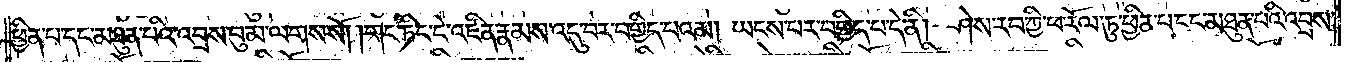ཕྱིན་པ་དང་མཐུན་པའི་འབྲས་བུ་མ་ལགས་སོ། །གང་ཏིང་ངེ་འཛིན་རྣམས་འདུ་བར་བགྱིད་པའམ། ཡངས་པར་བགྱིད་པ་དེ་ནི། ཤེས་རབ་ཀྱི་ཕ་རོལ་ཏུ་ཕྱིན་པ་དང་མཐུན་པའི་འབྲས་
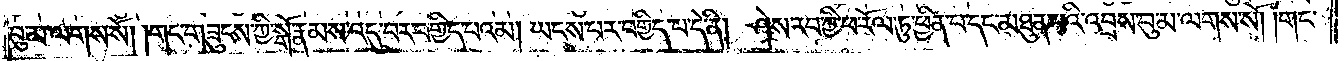བུ་མ་ལགས་སོ། །གང་གཟུངས་ཀྱི་སྒོ་རྣམས་འདུ་བར་བགྱིད་པའམ། ཡངས་པར་བགྱིད་པ་དེ་ནི། ཤེས་རབ་ཀྱི་ཕ་རོལ་ཏུ་ཕྱིན་པ་དང་མཐུན་པའི་འབྲས་བུ་མ་ལགས་སོ། །གང་
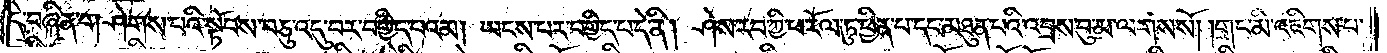དེ་བཞིན་གཤེགས་པའི་སྟོབས་བཅུ་འདུ་བར་བགྱིད་པའམ། ཡངས་པར་བགྱིད་པ་དེ་ནི། ཤེས་རབ་ཀྱི་ཕ་རོལ་ཏུ་ཕྱིན་པ་དང་མཐུན་པའི་འབྲས་བུ་མ་ལགས་སོ། །གང་མི་འཇིགས་པ་
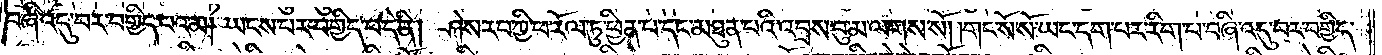བཞི་འདུ་བར་བགྱིད་པའམ། ཡངས་པར་བགྱིད་པ་དེ་ནི། ཤེས་རབ་ཀྱི་ཕ་རོལ་ཏུ་ཕྱིན་པ་དང་མཐུན་པའི་འབྲས་བུ་མ་ལགས་སོ། །གང་སོ་སོ་ཡང་དག་པར་རིག་པ་བཞི་འདུ་བར་བགྱིད་
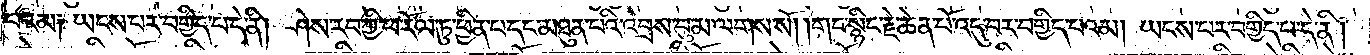པའམ༑ ཡངས་པར་བགྱིད་པ་དེ་ནི། ཤེས་རབ་ཀྱི་ཕ་རོལ་ཏུ་ཕྱིན་པ་དང་མཐུན་པའི་འབྲས་བུ་མ་ལགས་སོ། །གང་སྙིང་རྗེ་ཆེན་པོ་འདུ་བར་བགྱིད་པའམ། ཡངས་པར་བགྱིད་པ་དེ་ནི།
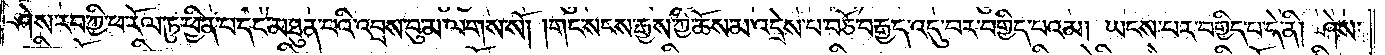ཤེས་རབ་ཀྱི་ཕ་རོལ་ཏུ་ཕྱིན་པ་དང་མཐུན་པའི་འབྲས་བུ་མ་ལགས་སོ། །གང་སངས་རྒྱས་ཀྱི་ཆོས་མ་འདྲེས་པ་བཅོ་བརྒྱད་འདུ་བར་བགྱིད་པའམ། ཡངས་པར་བགྱིད་པ་དེ་ནི། ཤེས་
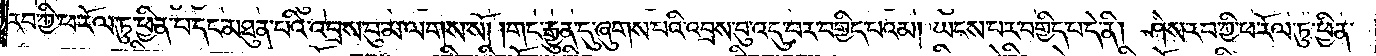རབ་ཀྱི་ཕ་རོལ་ཏུ་ཕྱིན་པ་དང་མཐུན་པའི་འབྲས་བུ་མ་ལགས་སོ། །གང་རྒྱུན་དུ་ཞུགས་པའི་འབྲས་བུ་འདུ་བར་བགྱིད་པའམ། ཡངས་པར་བགྱིད་པ་དེ་ནི། ཤེས་རབ་ཀྱི་ཕ་རོལ་ཏུ་ཕྱིན་
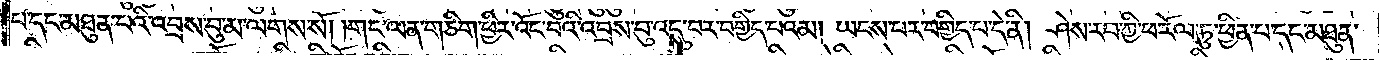པ་དང་མཐུན་པའི་འབྲས་བུ་མ་ལགས་སོ། །གང་ལན་གཅིག་ཕྱིར་འོང་བའི་འབྲས་བུ་འདུ་བར་བགྱིད་པའམ། ཡངས་པར་བགྱིད་པ་དེ་ནི། ཤེས་རབ་ཀྱི་ཕ་རོལ་ཏུ་ཕྱིན་པ་དང་མཐུན་
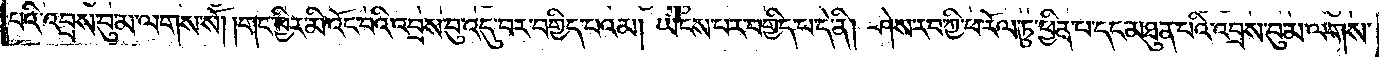པའི་འབྲས་བུ་མ་ལགས་སོ། །གང་ཕྱིར་མི་འོང་བའི་འབྲས་བུ་འདུ་བར་བགྱིད་པའམ། ཡངས་པར་བགྱིད་པ་དེ་ནི། ཤེས་རབ་ཀྱི་ཕ་རོལ་ཏུ་ཕྱིན་པ་དང་མཐུན་པའི་འབྲས་བུ་མ་ལགས་
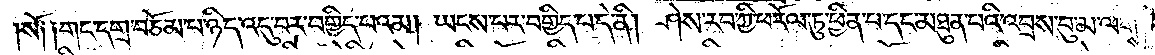སོ༑ ༑གང་དགྲ་བཅོམ་པ་ཉིད་འདུ་བར་བགྱིད་པའམ། ཡངས་པར་བགྱིད་པ་དེ་ནི། ཤེས་རབ་ཀྱི་ཕ་རོལ་ཏུ་ཕྱིན་པ་དང་མཐུན་པའི་འབྲས་བུ་མ་ལགས་
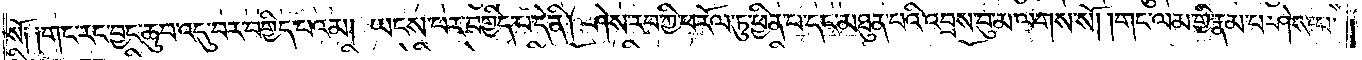སོ༑ ༑གང་རང་བྱང་ཆུབ་འདུ་བར་བགྱིད་པའམ། ཡངས་པར་བགྱིད་པ་དེ་ནི། ཤེས་རབ་ཀྱི་ཕ་རོལ་ཏུ་ཕྱིན་པ་དང་མཐུན་པའི་འབྲས་བུ་མ་ལགས་སོ། །གང་ལམ་གྱི་རྣམ་པ་ཤེས་པ་
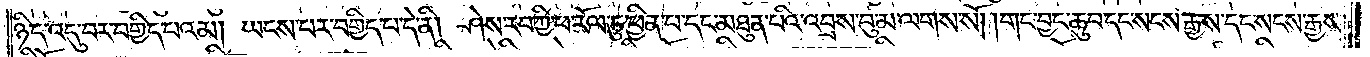ཉིད་འདུ་བར་བགྱིད་པའམ། ཡངས་པར་བགྱིད་པ་དེ་ནི། ཤེས་རབ་ཀྱི་ཕ་རོལ་ཏུ་ཕྱིན་པ་དང་མཐུན་པའི་འབྲས་བུ་མ་ལགས་སོ། །གང་བྱང་ཆུབ་དང་སངས་རྒྱས་དང་སངས་རྒྱས་
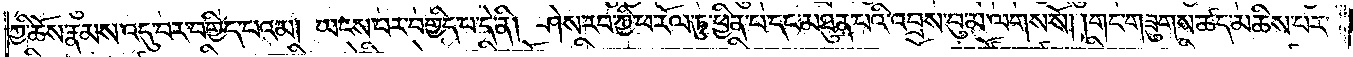ཀྱི་ཆོས་རྣམས་འདུ་བར་བགྱིད་པའམ། ཡངས་པར་བགྱིད་པ་དེ་ནི། ཤེས་རབ་ཀྱི་ཕ་རོལ་ཏུ་ཕྱིན་པ་དང་མཐུན་པའི་འབྲས་བུ་མ་ལགས་སོ། །གང་གཟུགས་ཚད་མཆིས་པར་
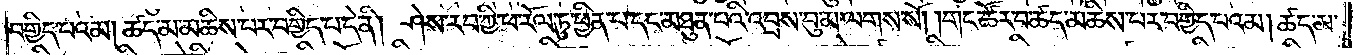བགྱིད་པའམ། ཚད་མ་མཆིས་པར་བགྱིད་པ་དེ་ནི། ཤེས་རབ་ཀྱི་ཕ་རོལ་ཏུ་ཕྱིན་པ་དང་མཐུན་པའི་འབྲས་བུ་མ་ལགས་སོ། །གང་ཚོར་བ་ཚད་མཆིས་པར་བགྱིད་པའམ། ཚད་མ་
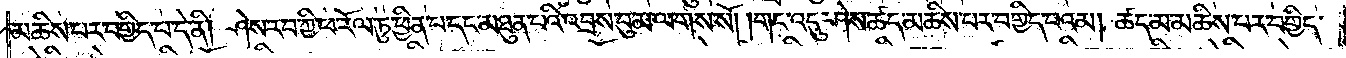མཆིས་པར་བགྱིད་པ་དེ་ནི། ཤེས་རབ་ཀྱི་ཕ་རོལ་ཏུ་ཕྱིན་པ་དང་མཐུན་པའི་འབྲས་བུ་མ་ལགས་སོ། །གང་འདུ་ཤེས་ཚད་མཆིས་པར་བགྱིད་པའམ། ཚད་མ་མཆིས་པར་བགྱིད་
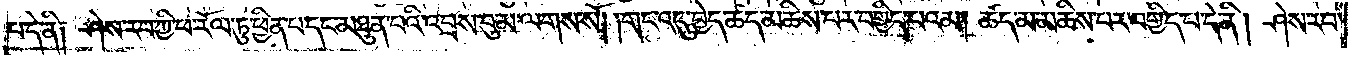པ་དེ་ནི༑ ཤེས་རབ་ཀྱི་ཕ་རོལ་ཏུ་ཕྱིན་པ་དང་མཐུན་པའི་འབྲས་བུ་མ་ལགས་སོ། །གང་འདུ་བྱེད་ཚད་མཆིས་པར་བགྱིད་པའམ། ཚད་མ་མཆིས་པར་བགྱིད་པ་དེ་ནི། ཤེས་རབ་
